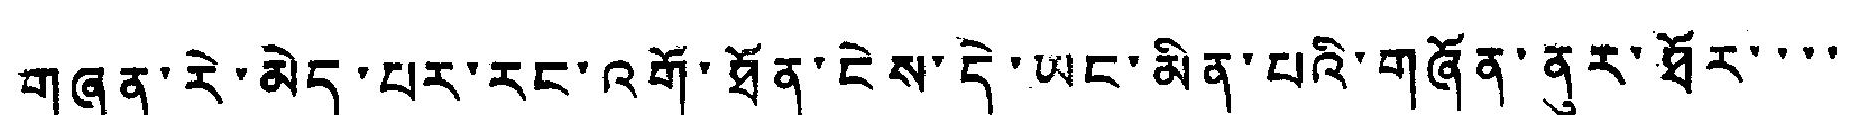གཞན་རེ་མེད་པར་རང་འགོ་ཐོན་ངེས་དེ་ཡང་མིན་པའི་གཞོན་ནུར་ཐོར་་་་
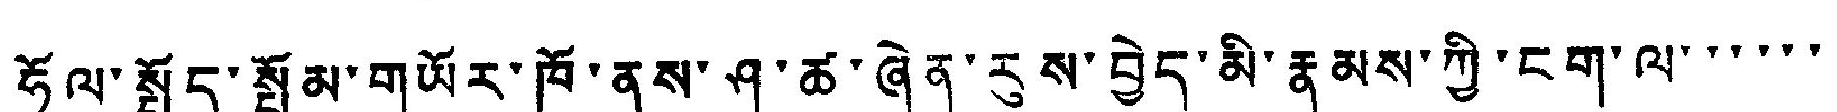ཧོལ་སྤྱོད་སྤོམ་གཡོར་ཁོ་ནས་ཤ་ཚ་ཞེན་རུས་བྱེད་མི་རྣམས་ཀྱི་ངག་ལ་་་་་་
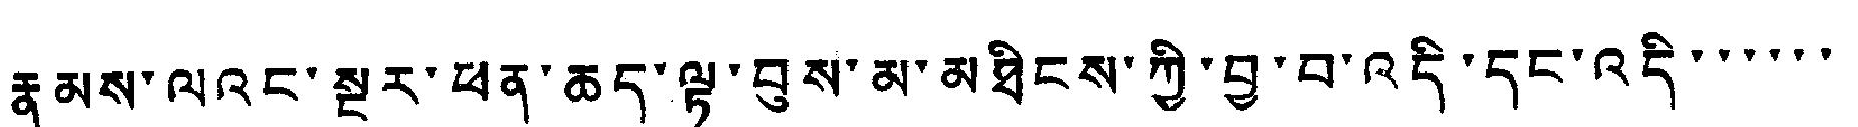རྣམས་ལའང་སྔར་ཕན་ཆད་ལྟ་བུས་མ་མཐིངས་ཀྱི་བྱ་བ་འདི་དང་འདི་་་་་་
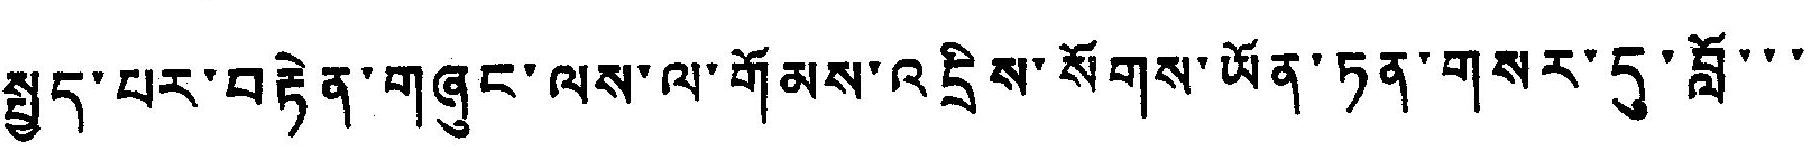སྤྱད་པར་བརྟེན་གཞུང་ལས་ལ་གོམས་འདྲིས་སོགས་ཡོན་ཏན་གསར་དུ་བློ་་་
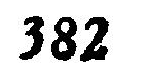382
